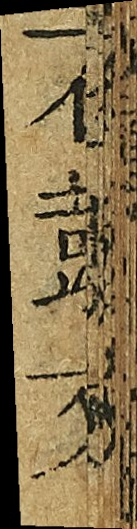石鼓文
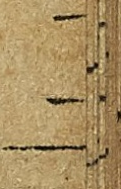一二
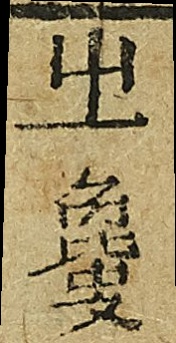㞢憂
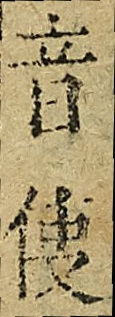音使
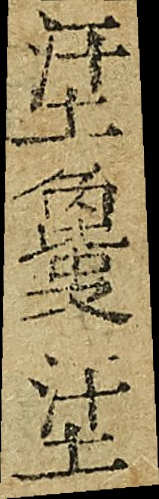（汗土）憂（汗土）
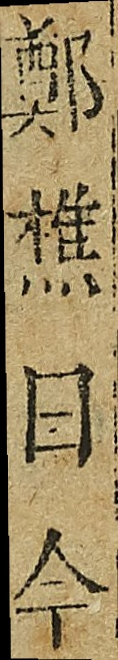鄭樵曰今
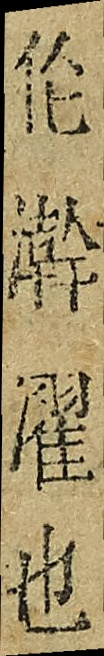伦澣濯也
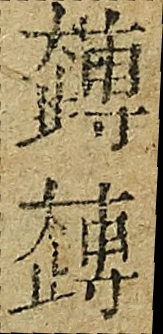縛縛？
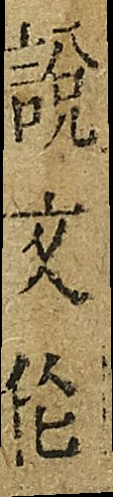說文倫
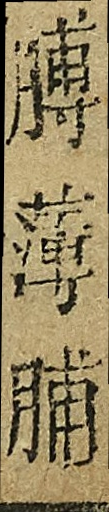膊薄脯
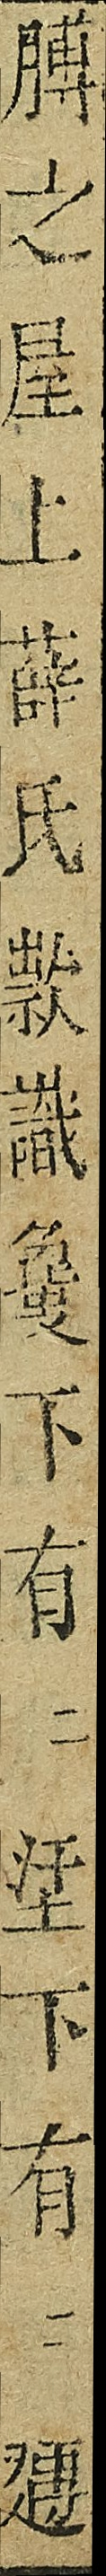膊之屋上薛氏㱁識憂下有二（汗土）下有二（走尃）
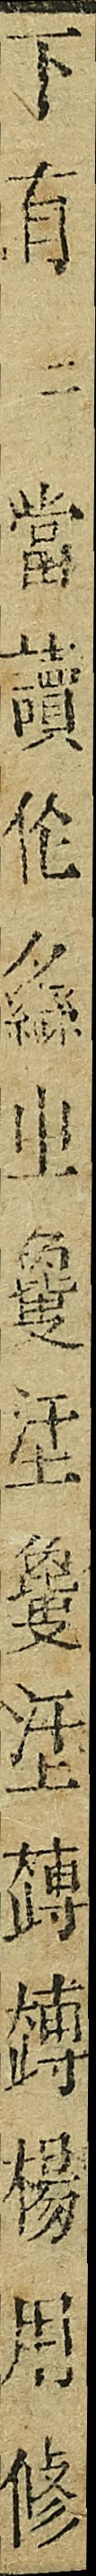下有二當讀倫名里憂（汗土）憂（汗上）㙛㙛楊用
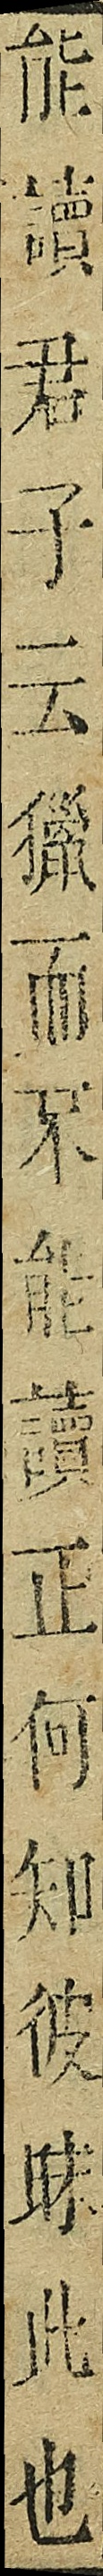能讀君子云獵而不能讀正何知彼味此也
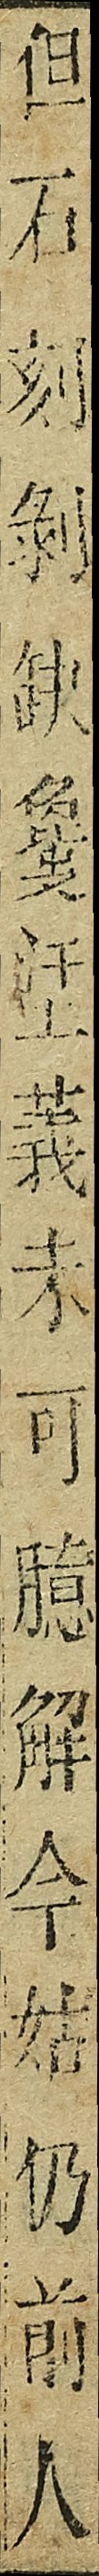但石刻剝缺憂（汗土）莪未可臆解令姑仍前人
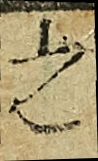之
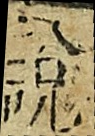說
